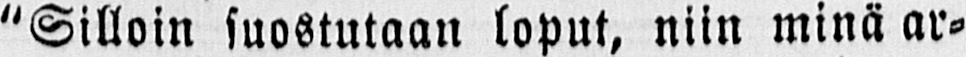"Silloin suostutaan loput, niin minä ar-
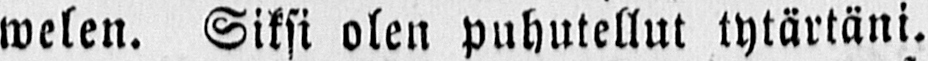welen. Siksi olen puhutellut tytärtäni.
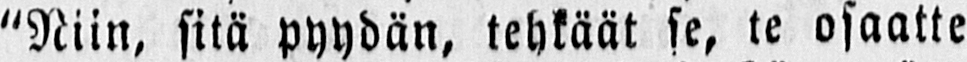"Niin, sitä pyydän, tehkäät se, te osaatte
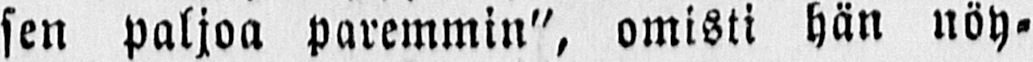sen paljoa paremmin", omisti hän nöy-
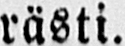rästi.
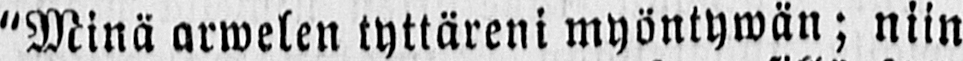"Minä arwelen tyttäreni myöntywän; niin
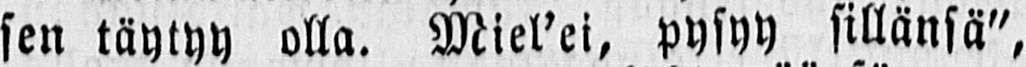sen täytyy olla. Miel’ei, pysyy sillänsä",
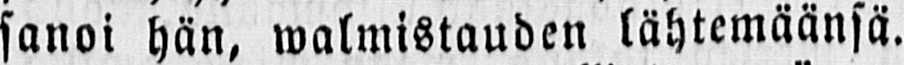sanoi hän, walmistauden lähtemäänsä.
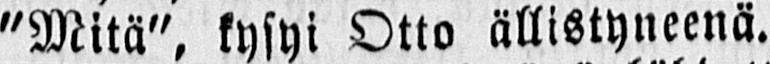"Mitä", kysyi Otto ällistyneenä.
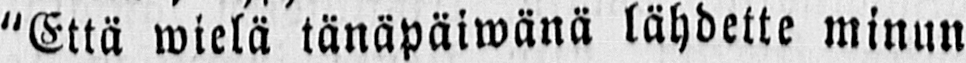"Että wielä tänäpäiwänä lähdette minun
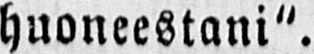huoneestani".
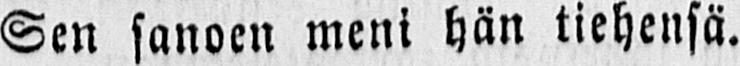Sen sanoen meni hän tiehensä.
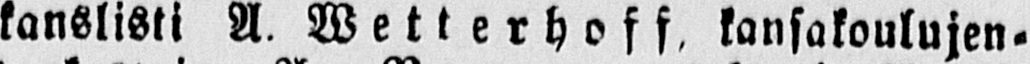kanslisti A. Wetterhoff, kansakoulujen-
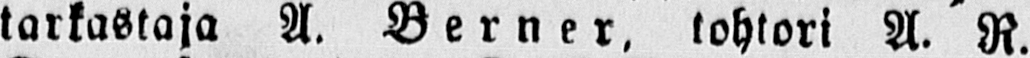tarkastaja A. Berner, tohtori A. R.
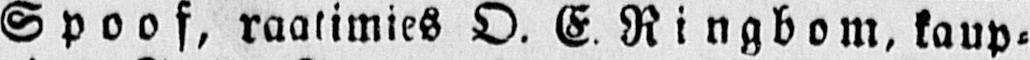Spoof, raatimies O. E Ringbom, kaup-
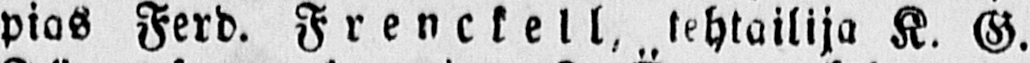pias Ferd. Frenckell, tehtailija K. G.
